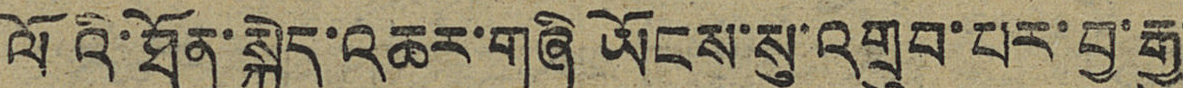ལོའི་ཐོན་སྐྱེད་འཆར་གཞི ཡོངས་སུ་འགྲུབ་པར་བྱ་རྒྱུ་
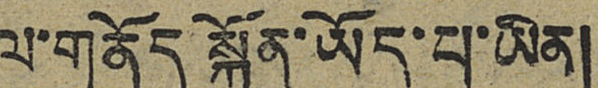ལ་གནོད སྐྱོན་ཡོད་པ་ཡིན།
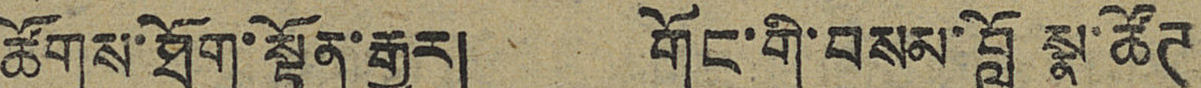ཚོགས་ཐོག་སྟོན་རྒྱུར། གོང་གི་བསམ་བློ སྣ་ཚོཊ
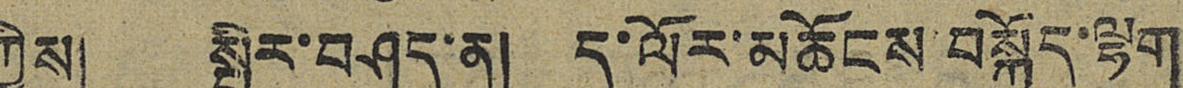ཀྱིས། སྤྱིར་བཤད་ན། ད་ལོར་མཆོངས་བསྐྱོད་ལྷག
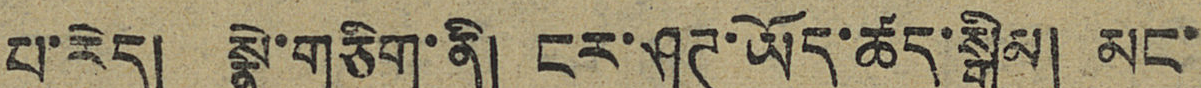པ་རེད། སྣེ་གཅིག་ནི། ངར་ཤུཊ་ཡོད་ཚད་སྒྲིམ། མང་
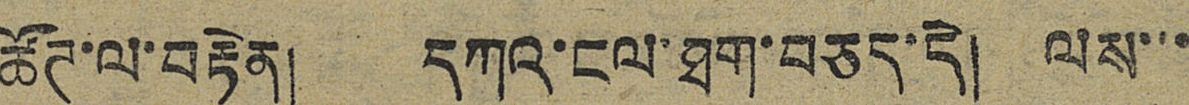ཚོཊ་ལ་བརྟེན། དཀའ་ངལ་ཐག་བཅད་དེ། ལས་་་
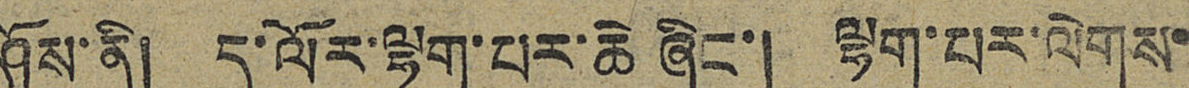ཤོས་ནི། ད་ལོར་ལྷག་པར་ཆེ ཞིང་། ལྷག་པར་ལེགས་
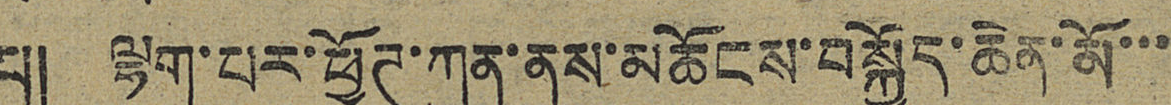པ། ལྷག་པར་ཕྱོཊ་ཀུན་ནས་མཆོངས་བསྐྱོད་ཆེན་མོ་་་
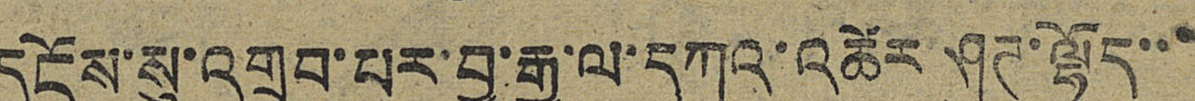དངོས་སུ་འགྲུབ་པར་བྱ་རྒྱུ་ལ་དཀའ་འཚེར་ཤུཊ་ལྷོད་་་་
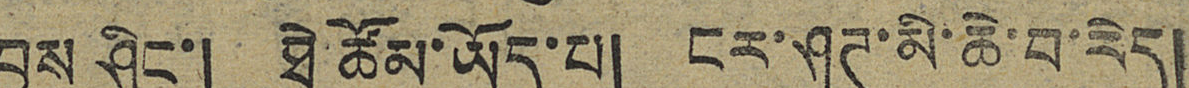བྱས ཤིང་། ཐེ་ཚོམ་ཡོད་པ། ངར་ཤུཊ་མི་ཆེ་བ་རེད།
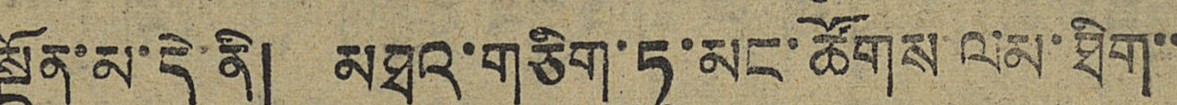སྔོན་མ་དེ་ནི། མཐའ་གཅིག་ཏུ་མང་ཚོགས་ལམ་ཐིག་་
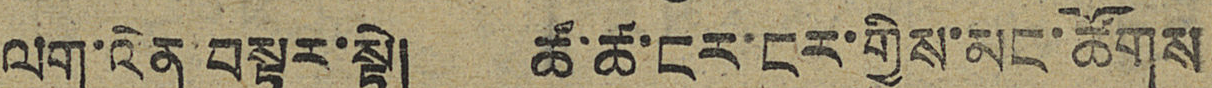ལག་ལེན བསྟར་སྟེ། ཚ་ཚ་ངར་ངར་གྱིས་མང་ཚོགས
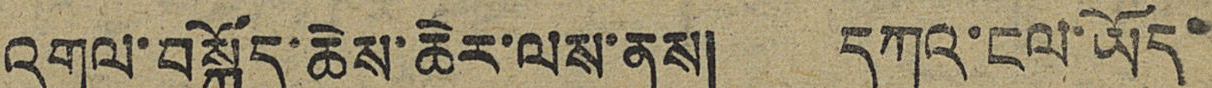འགུལ་བསྐྱོད་ཆེས་ཆེར་ལས་ནས། དཀའ་ངལ་ཡོད་
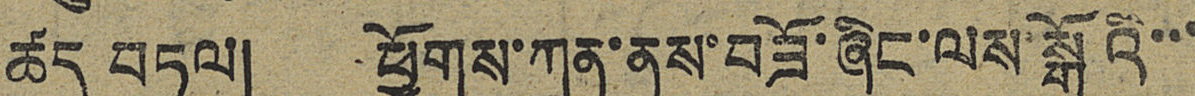ཚད བཏུལ། ཕྱོགས་ཀུན་ནས་བཟོ་ཞིང་ལས་སྒོའི་་་
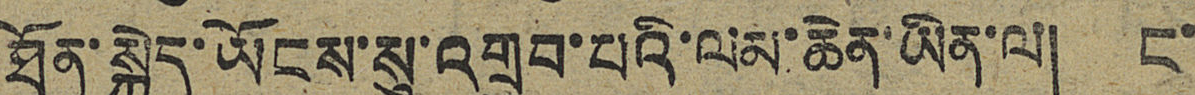ཐོན་སྐྱེད་ཡོངས་སུ་འགྲུབ་པའི་ལམ་ཆེན་ཡིན་ལ། ང་
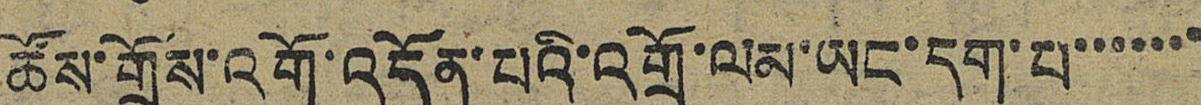ཚོས་གྲོས་འགོ་འདོན་པའི་འགྲོ་ལམ་ཡང་དག་པ་་་་་་་
